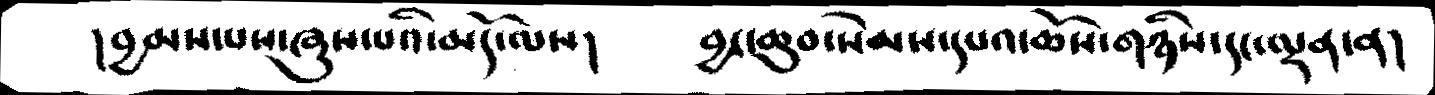།བྱམས་པས་ཞུས་པའི་ལས།    བྱང་ཆུབ་སེམས་དཔའ་ཆོས་གཉིས་དང་ལྡན་ན།
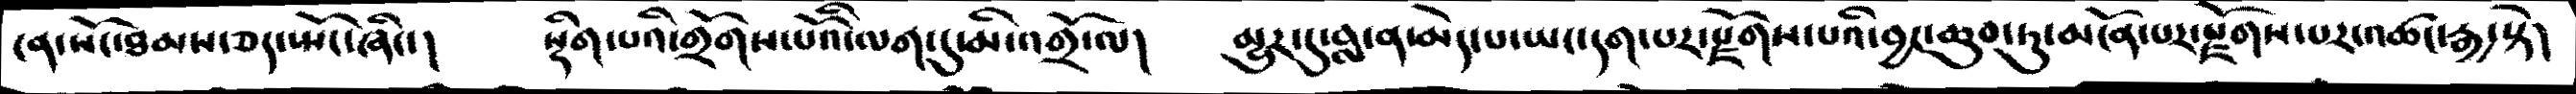ངན་སོང་ཐམས་ཅད་སྤོང་ཞིང།    སྡིག་པའི་གྲོགས་པོའི་ལག་དུ་མི་འགྲོ་ལ།   མྱུར་དུ་བླ་ན་མེད་པ་ཡང་དག་པར་སྫོགས་པའི་བྱང་ཆུབ་ཏུ་མངོན་པར་སྫོགས་པར་འཚང་རྒྱ་སྟེ།
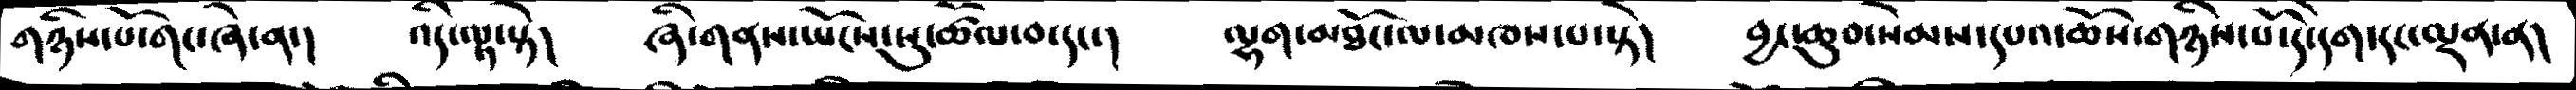གཉིས་པོ་གང་ཞེ་ན་།    འདི་ལྟ་སྟེ།     ཞི་གནས་ཡོངས་སུ་ཚོལ་བ་དང་།   ལྷག་མཐོང་ལ་མཁས་པ་སྟེ།    བྱང་ཆུབ་སེམས་དཔའ་ཆོས་གཉིས་པོ་དེ་དག་དང་ལྡན་ན།
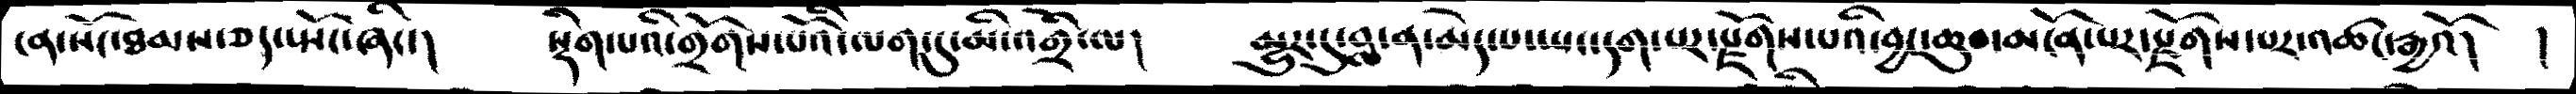ངན་སོང་ཐམས་ཅད་སྤོང་ཞིང་།    སྡིག་པའི་གྲོགས་པོའི་ལག་དུ་མི་འགྲོ་ལ།    མྱུར་དུ་བླ་ན་མེད་པ་ཡང་དག་པར་སྫོགས་པའི་བྱང་ཆུབ་མངོན་པར་སྫོགས་པར་འཚང་རྒྱའོ། །
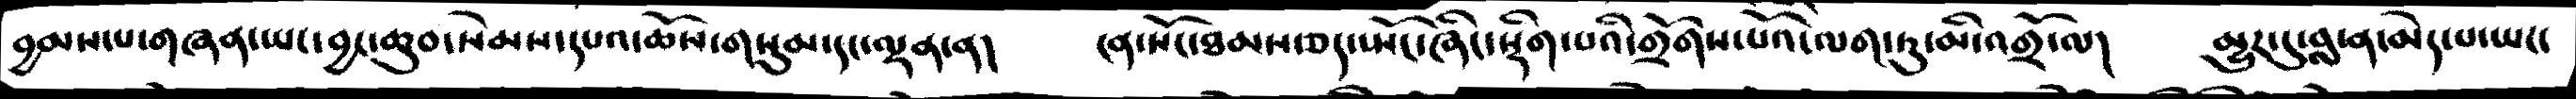བྱམས་པ་གཞན་ཡང་བྱང་ཆུབ་སེམས་དཔའ་ཆོས་གསུམ་དང་ལྡན་ན།   ངན་སོང་ཐམས་ཅད་སྤོང་ཞིང་སྡིག་པའི་གྲོགས་པའོ་ལག་ཏུ་མི་འགྲོ་ལ།   མྱུར་དུ་བླ་ན་མེད་པ་ཡང་
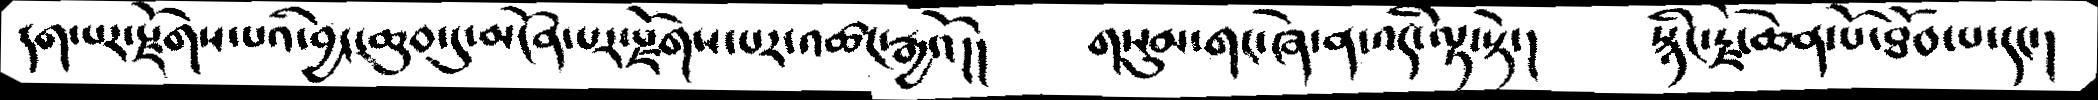དག་པར་སྫོགས་པའི་བྱང་ཆུབ་དུ་མངོན་པར་སྫོགས་པར་འཚང་རྒྱའོ།།   གསུམ་གང་ཞེ་ན་འདི་ལྟར་།   སྙིང་རྗེ་ཆེན་པོ་ཐོབ་པ་དང་།
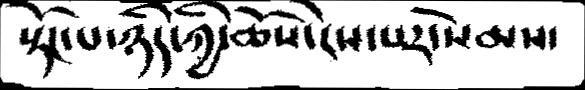སྟོང་པ་ཉིད་ཀྱི་ཆོས་ངེས་པར་སེམས་
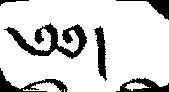༅༅།
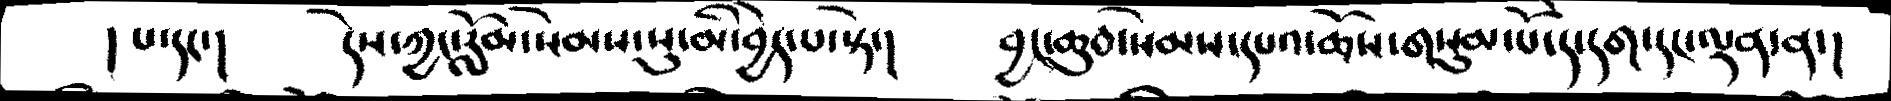། པ་དང་།   དེས་ཀྱང་རློམ་སེམས་སུ་མི་བྱེད་པ་སྟེ་།   བྱང་ཆུབ་སེམས་དཔའ་ཆོས་གསུམ་པོ་དེ་དག་དང་ལྡན་ན་།
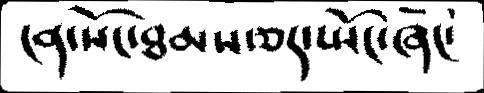ངན་སོང་ཐམས་ཅད་སྤོང་ཞིང་
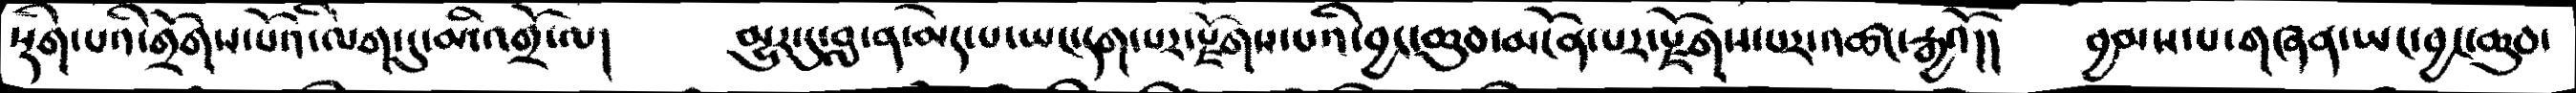སྡིག་པའི་གྲོགས་པོའི་ལག་དུ་མི་འགྲོ་ལ།    མྱུར་དུ་བླ་ན་མེད་པ་ཡང་དག་པར་སྫོགས་པའི་བྱང་ཆུབ་མངོན་པར་སྫོགས་པར་འཚང་རྒྱའོ།།  བྱམས་པ་གཞན་ཡང་བྱང་ཆུབ་
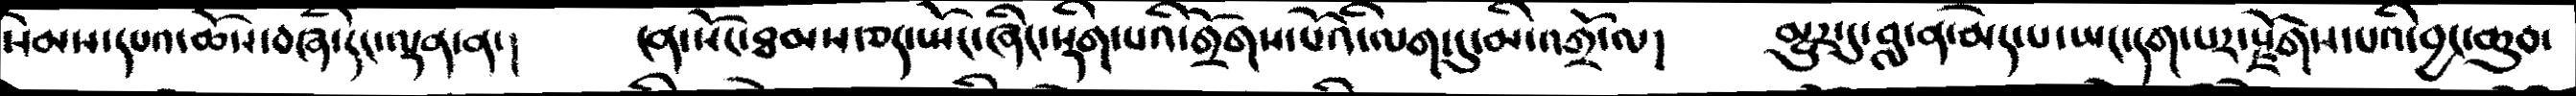སིམས་དཔའ་ཆོས་བཞི་དང་ལྡན་ན་།   ངན་སོང་ཐམས་ཅད་སྤོང་ཞིང་སྡིག་པའི་གྲོགས་པོའི་ལག་དུ་མི་འགྲོ་ལ།   མྱུར་དུ་བླ་ན་མེད་པ་ཡང་དག་པར་སྫོགས་པའི་བྱང་ཆུབ་
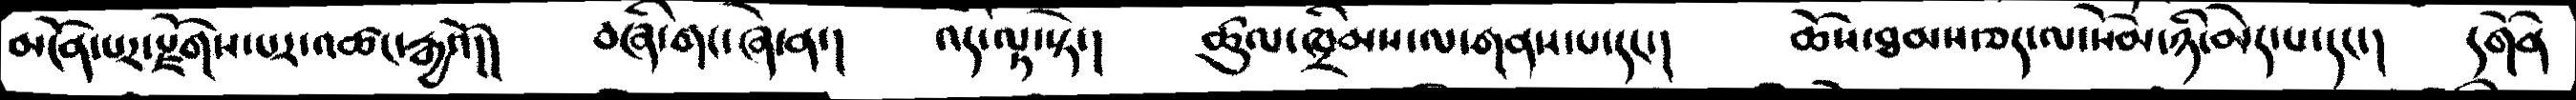མངོན་པར་སྫོགས་པར་འཚང་རྒྱའོ།།   བཞི་གང་ཞེ་ན་།   འདི་ལྟ་སྟེ་།    ཚུལ་ཁྲིམས་ལ་གནས་པ་དང་།    ཆོས་ཐམས་ཅད་སོམ་ཉི་མེད་པ་དང་།   དགོན
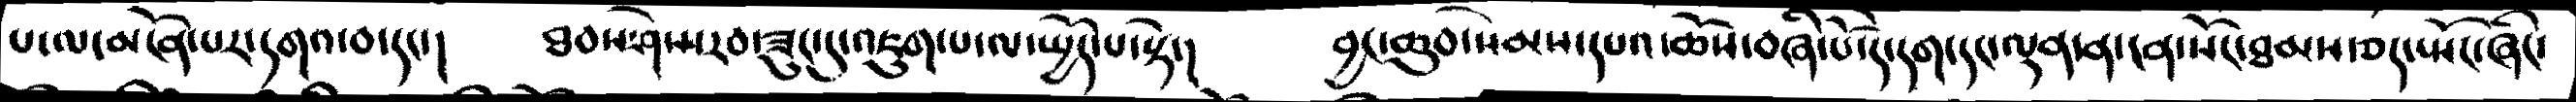པ་ལ་མངོན་པར་དགའ་བ་དང་།     ཐམས་ཤེས་རབ་ཟུང་དུ་འཇུག་པ་ལ་ཡྱོད་པ་སྟེ་།    བྱང་ཆུབ་སེམས་དཔའ་ཆོས་བཞི་པོ་དེ་དག་དང་ལྡན་ན་ངན་སོང་ཐམས་ཅད་སྤོང་ཞིང་
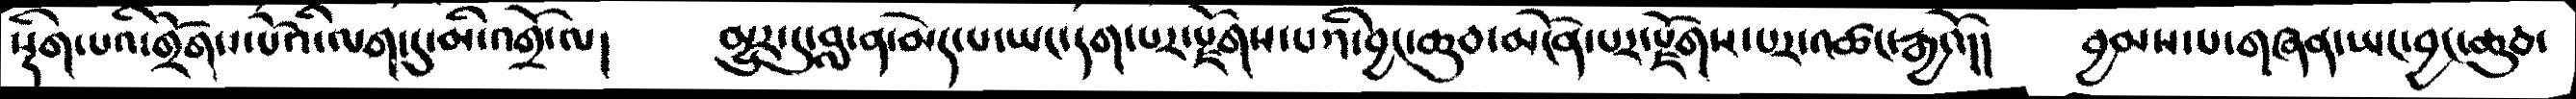སྡིག་པའི་གྲོགས་པོའི་ལག་དུ་མི་འགྲོ་ལ།    མྱུར་དུ་བླ་ན་མེད་པ་ཡང་དག་པར་སྫོགས་པའི་བྱང་ཆུབ་མངོན་པར་སྫོགས་པར་འཚང་རྒྱའོ།།   བྱམས་པ་གཞན་ཡང་བྱང་ཆུབ་
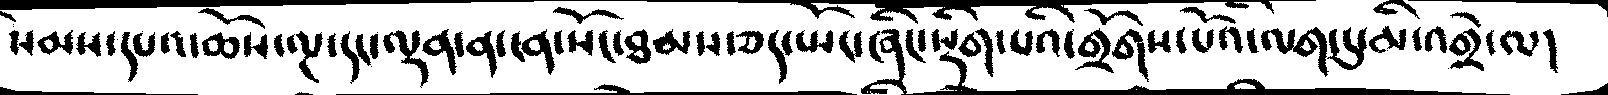སེམས་དཔའ་ཆོས་ལྔ་དང་ལྡན་ན་ངན་སོང་ཐམས་ཅད་སྤོང་ཞིང་སྡིག་པའི་གྲོགས་པོའི་ལག་དུ་མི་འགྲོ་ལ།
